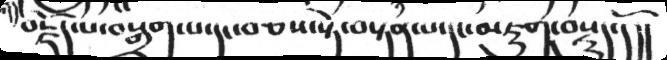བརྗོད་པ་བསྒྲག་པ་དང་བཅས་སྟེ་བསྟན་པ་དང་མཇུག་བསྡུད་དོ།།
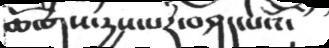ཆོ་གས་རྱས་པར་བཤད་པའོ།
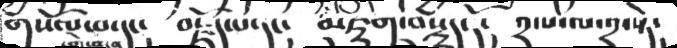གསོལ་བ་དང།      བརྗོད་པ་དང།    མཇུག་བསྡུད་དོ།    ༢་པ་ལ་༢་སྟེ་
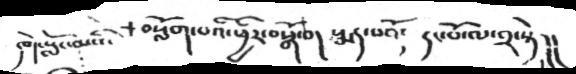དགེ་སློང་མའི་ བསློག་པའི་ཕྱིར་བསྒོ་བ། སྨད་པའོ། དང་པོ་ལ་༢་སྟེ།།
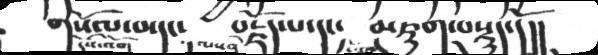གསོལ་བ་དང།    བརྗོད་པ་དང།   མཇུག་བསྡུད་དོ།།།
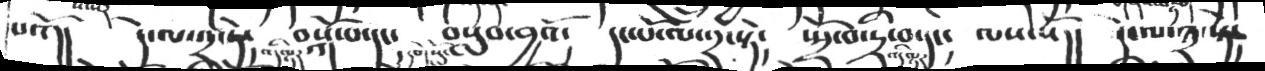པའོ།།   དེ་ལ་༢་ཏེ།   བསྐོ་པ་དང།   བསླབ་བྱའོ།    དང་པོ་ལ་༢་སྟེ།    ཡྲོ་བ་དྲི་བ་དང།    ལས་སོ།།    དེ་ལ་༣་སྟེ།
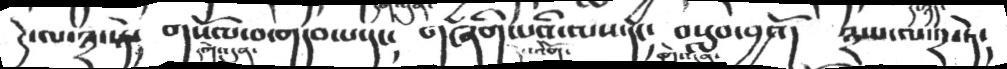དེ་ལ་༣་སྟེ༴   གསོལ་བ་གདབ་པ་དང༴   གཞིག་པའི་ལས་དང༴  བསླབ་བྱའོ།   ༣་པ་ལ་༢་ཏེ༴
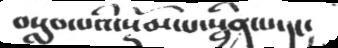བསླབ་པའི་སྡོམ་པ་སྦྱིན་པ་དང།
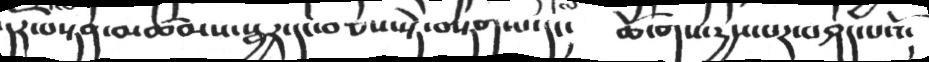དར་བསྟན་མཚམས་སྦྱར་དང་བཅས་སྟེ་བསྟག་པ་དང། ཆོ་གས་རྱས་པར་བཤད་པའོ།
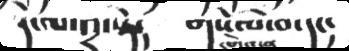དེ་ལ་༢་སྟེ༴  གསོལ་བ་དང༴
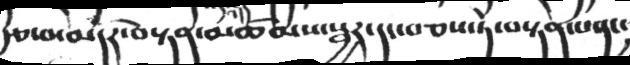རྩ་བ་མདོར་བསྟན་མཚམས་སྦྱར་དང་བཅས་ཏེ་བསྟན་པ་དང༴
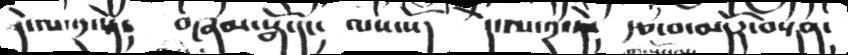དེ་ལ་༢་སྟེ༴  བཞམ་སྒོ་དང༴  ལས་སོ།  དེ་ལ་༢་ཏེ༴   རྩ་བ་མདོར་བསྟན༴
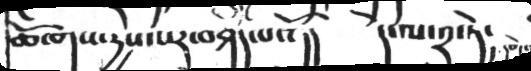ཆོ་གས་དྱས་པར་བཤད་པའོ།།  དེ་ལ་༢་ཏེ༴
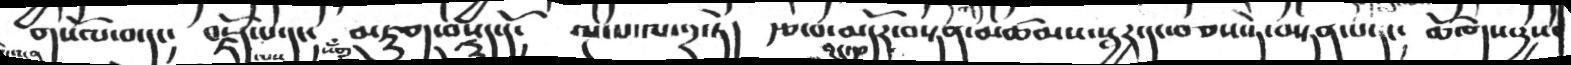གསོལ་བ་དང༴   བརྗོད་པ་དང༴   མཇུག་བསྡུད་དོ༴   ལྔ་པ་ལ་༢་ཏེ།  རྩ་བ་མདོར་བསྟན་མཚམས་སྦྱར་དང་བཅས་ཏེ་བསྟན་པ་དང༴   ཆོ་གས་དྱས་
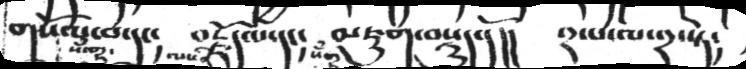གསོལ་བ་དང།    བརྗོད་པ་དང།    མཇུག་བསྡུད་དོ།།     ༢་པ་ལ་༢་སྟེ།
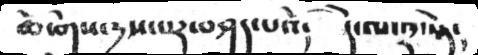ཆོ་གས་དྱས་པར་བཤད་པའོ།  དེ་ལ་༢་སྟེ།
